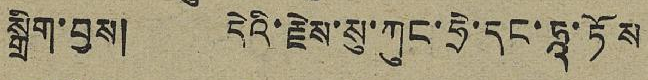སྒྲིག་བྱས། དེའི་རྗེས་སུ་ཀུང་ཧྲེ་དང་ཏཱ་ཏོས
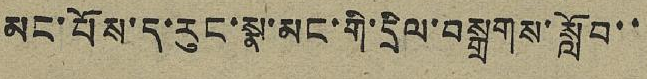མང་པོས་ད་རུང་སྣ་མང་གི་དྲིལ་བསྒྲགས་སློབ་་
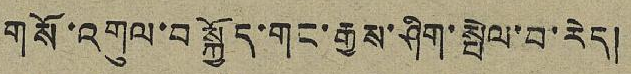གསོ་འགུལ་བསྐྱོད་གང་རྒྱས་ཤིག་སྤེལ་བ་རེད།
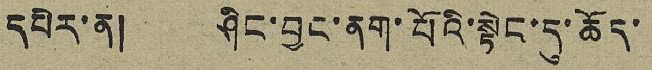དཔེར་ན། ཤིང་བྱང་ནག་པོའི་སྟེང་དུ་ཆོད་
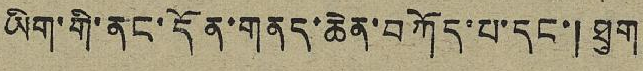ཡིག་གི་ནང་དོན་གནད་ཆེན་བཀོད་པ་དང་། ཐུག
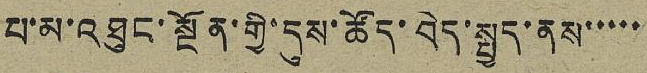པ་མ་འཐུང་སྔོན་གྱི་དུས་ཚོད་བེད་སྤྱད་ནས་་་་་
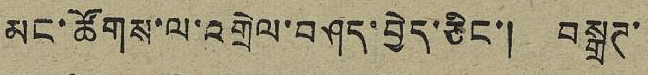མང་ཚོགས་ལ་འགྲེལ་བཤད་བྱེད་ཅིང་། བསྒྲཊ་
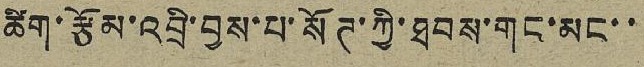ཚིག་རྩོམ་འབྲི་བྱས་པ་སོཊ་ཀྱི་ཐབས་གང་མང་་
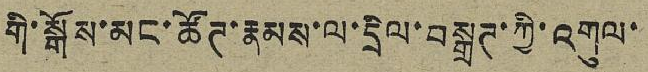གི་སྒོས་མང་ཚོཊ་རྣམས་ལ་དྲིལ་བསྒྲཊ་ཀྱི་འགུལ་
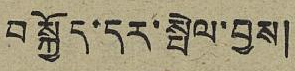བསྐྱོད་དར་སྤེལ་བྱས།
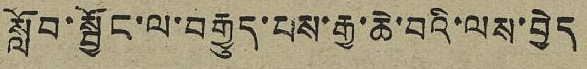སློབ་སྦྱོང་ལ་བརྒྱུད་པས་རྒྱ་ཆེ་བའི་ལས་བྱེད
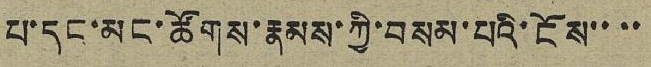པ་དང་མང་ཚོགས་རྣམས་ཀྱི་བསམ་པའི་ངོས་་་་
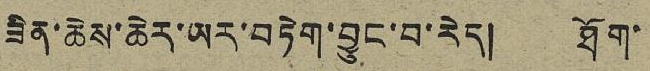ཟིན་ཆེས་ཆེར་ཡར་བཏེག་བྱུང་བ་རེད། ཐོག་
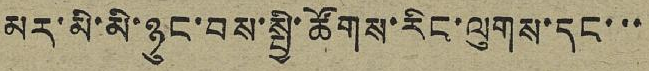མར་མི་མི་ཉུང་བས་སྤྱི་ཚོགས་རིང་ལུགས་དང་་་
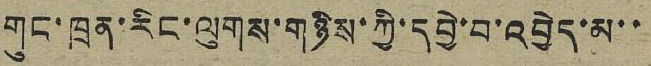གུང་ཁྲན་རིང་ལུགས་གཉིས་ཀྱི་དབྱེ་བ་འབྱེད་མ་་
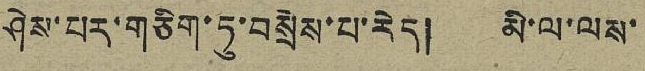ཤེས་པར་གཅིག་ཏུ་བསྲེས་པ་རེད། མི་ལ་ལས་
